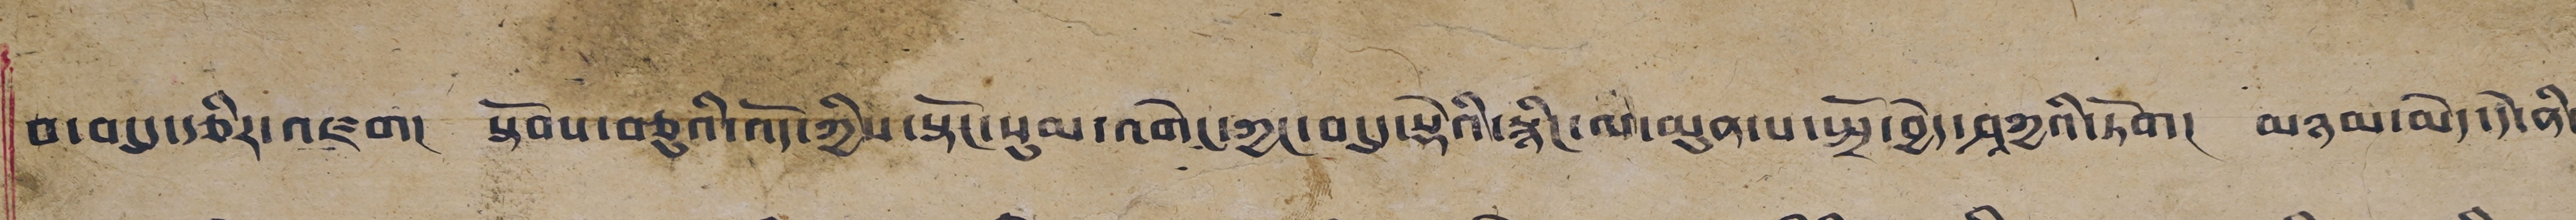བ་བདུད་རྩིར་འཛག། སྟོབས་བཅུའི་འོད་ཀྱིས་སྟོང་སུམ་འགེང་ཀྱང་བསུ་སྡེའི་སྙིང་ལ་མུན་པ་སྤྲོ་བྱེད་ཤཱཀྱའི་ཏོག། མཉམ་མེད་དེ་ནི་
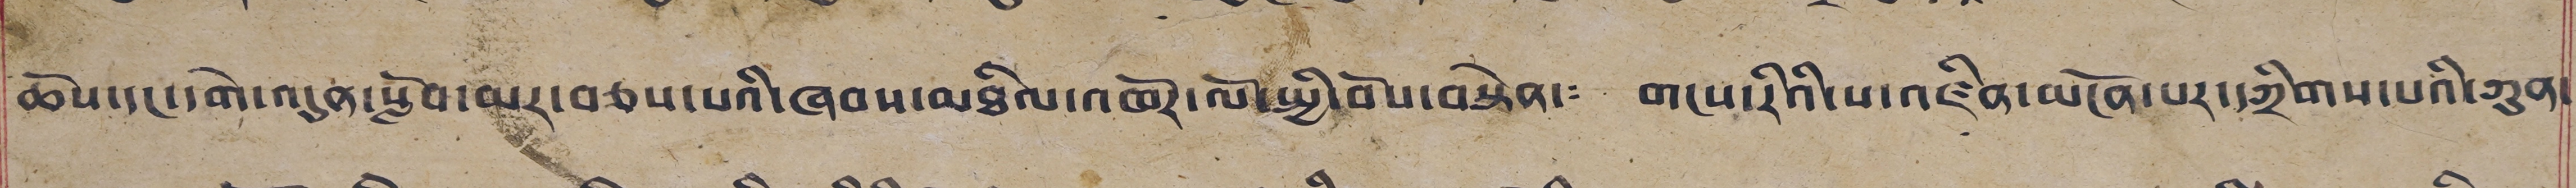ཆོས་དང་དགེ་འདུན་སློབ་མར་བཅས་པའི་ཞབས་མཐིལ་འཁོར་ལོ་སྤྱི་བོས་བསྟེན་༴ གངས་རིའི་ས་འཛིན་མངོན་པར་དཀྲིགས་པའི་ཀུན་
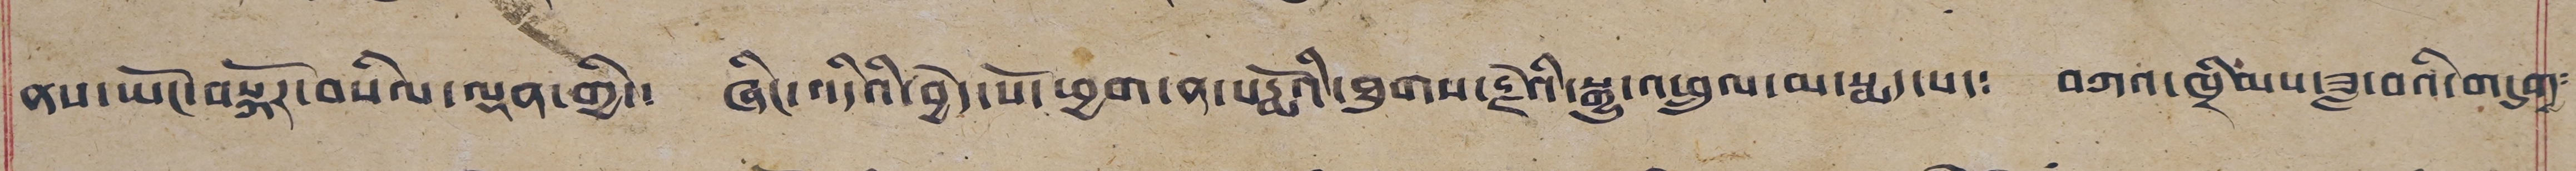ནས་ཡོང་བསྐོར་བསིལ་ལྡན་གྱི་༴ ཞིང་འདིའི་བྱེད་པོ་ཕྱག་ན་པདྨོའི་ཐུགས་རྗེའི་སྒྱུ་འཕྲུལ་མ་སྨད་པ་༴ བཀའ་ཁྲིམས་ཟླ་བའི་གདུག༴
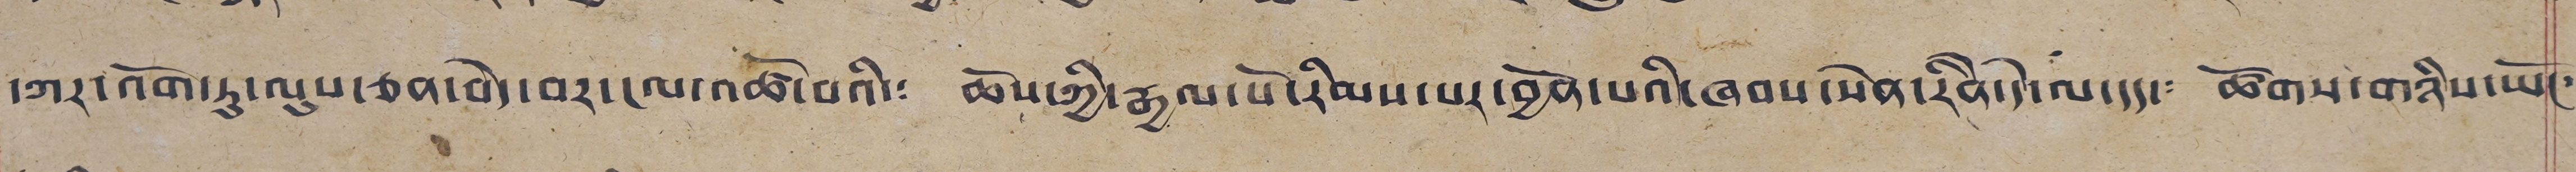དཀར་འོག་ཏུ་ལུས་ཅན་བེད་བར་ངལ་འཚོ་བའི་༴ ཆོས་ཀྱི་རྒྱལ་པེ་རིམས་པར་བྱོན་པའི་ཞབས་སེན་རིནི་དེ་ལ་དད་༴ ཚོགས་གཉིས་ཡོང༴
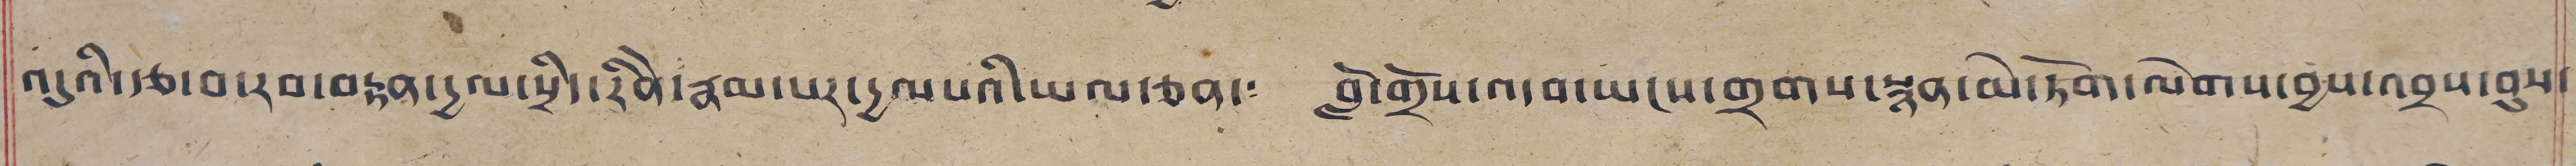འདུའི་རྩ་བ་རབ་བརྟན་དྱལ་སྲིད་རིནི་རྣམ་པར་དྱལ་པའི་ཡལ་ཅན་༴ བློ་གྲོས་འདབ་ཡངས་གྲགས་སྙན་མེ་ཏོག་ལེགས་བྱས་འབྲས་བུས་
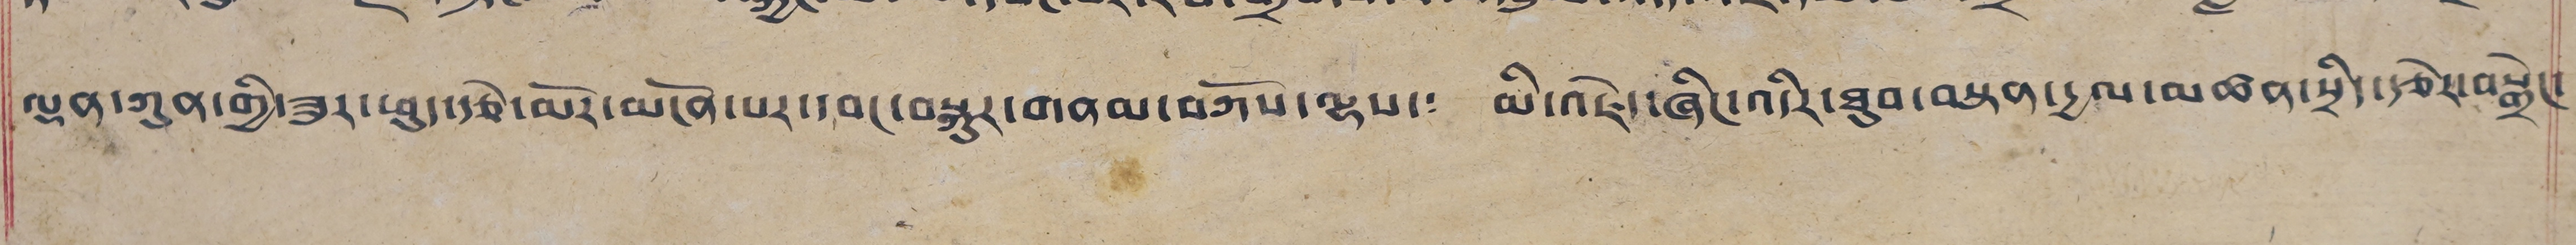ལྡན་ཀུན་གྱི་ཟུར་ཕུ་རྩེ་མོར་མངོན་པར་དབང་བསྐུར་གནམ་བཀོས་ལྷས་༴ མི་འཇེད་ཞིང་འདིར་ཐུབ་བསྟན་དྱལ་མཚན་སྲིད་རྩེར་བསྒྲེང་།
